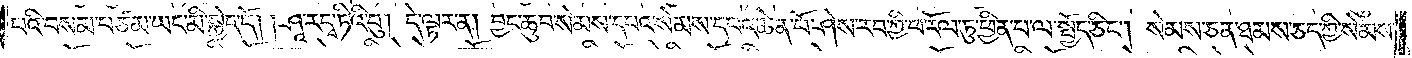པའི་བསམ་པ་ཙམ་ཡང་མི་སྐྱེད་དོ། །ཤཱ་ར་དྭ་ཏིའི་བུ། དེ་ལྟར་ན། བྱང་ཆུབ་སེམས་དཔའ་སེམས་དཔའ་ཆེན་པོ་ཤེས་རབ་ཀྱི་ཕ་རོལ་ཏུ་ཕྱིན་པ་ལ་སྤྱོད་ཅིང༌། སེམས་ཅན་ཐམས་ཅད་ཀྱི་སེམས་
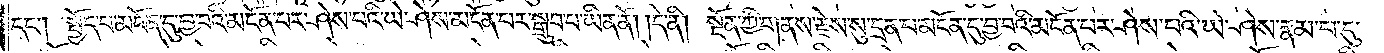དང༌། སྤྱོད་པ་མངོན་དུ་བྱ་བའི་མངོན་པར་ཤེས་པའི་ཡེ་ཤེས་མངོན་པར་སྒྲུབ་པ་ཡིན་ནོ། །དེ་ནི། སྔོན་ཀྱི་གནས་རྗེས་སུ་དྲན་པ་མངོན་དུ་བྱ་བའི་མངོན་པར་ཤེས་པའི་ཡེ་ཤེས་རྣམ་པ་དུ་
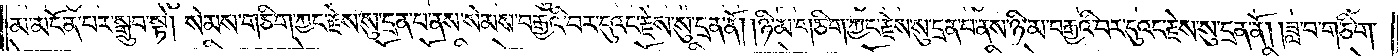མ་མངོན་པར་སྒྲུབ་སྟེ། སེམས་གཅིག་ཀྱང་རྗེས་སུ་དྲན་པ་ནས་སེམས་བརྒྱའི་པར་དུའང་རྗེས་སུ་དྲན་ནོ། །ཉི་མ་གཅིག་ཀྱང་རྗེས་སུ་དྲན་པ་ནས་ཉི་མ་བརྒྱའི་བར་དུའང་རྗེས་སུ་དྲན་ནོ། །ཟླ་བ་གཅིག་
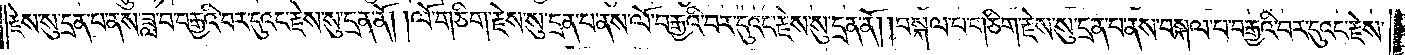རྗེས་སུ་དྲན་པ་ནས་ཟླ་བ་བརྒྱའི་བར་དུའང་རྗེས་སུ་དྲན་ནོ། །ལོ་གཅིག་རྗེས་སུ་དྲན་པ་ནས་ལོ་བརྒྱའི་པར་དུའང་རྗེས་སུ་དྲན་ནོ། །བསྐལ་པ་གཅིག་རྗེས་སུ་དྲན་པ་ནས་བསྐལ་པ་བརྒྱའི་བར་དུའང་རྗེས་
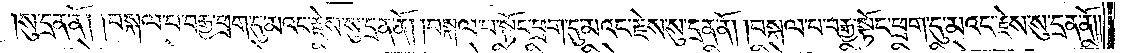སུ་དྲན་ནོ། །བསྐལ་པ་བརྒྱ་ཕྲག་དུ་མའང་རྗེས་སུ་དྲན་ནོ། །བསྐལ་པ་སྟོང་ཕྲག་དུ་མའང་རྗེས་སུ་དྲན་ནོ། །བསྐལ་པ་བརྒྱ་སྟོང་ཕྲག་དུ་མའང་རྗེས་སུ་དྲན་ནོ༎
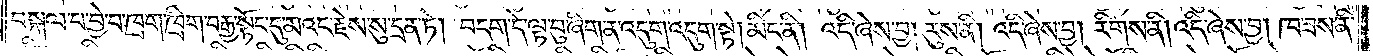བསྐལ་པ་བྱེ་བ་ཁྲག་ཁྲིག་བརྒྱ་སྟོང་དུ་མའང་རྗེས་སུ་དྲན་ཏེ། བདག་དེ་ལྟ་བུ་ཞིག་ན་འདུག་འདུག་སྟེ། མིང་ནི། འདི་ཞེས་བྱ། རུས་ནི། འདི་ཞེས་བྱ། རིགས་ནི། འདི་ཞེས་བྱ། ཁ་ཟས་ནི་
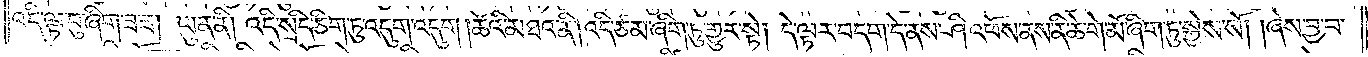འདི་ལྟ་བུ་ཞིག་ཟ་ཟ། ཡུན་ནི། འདི་སྲིད་ཅིག་ཏུ་འདུག་འདུག །ཚེའི་མཐའ་ནི། འདི་ཙམ་ཞིག་ཏུ་གྱུར་སྟེ༑ དེ་ལྟར་བདག་དེ་ནས་ཤི་འཕོས་ནས་ནི་ཆེ་གེ་མོ་ཞིག་ཏུ་སྐྱེས་སོ། །ཞེས་བྱ་བ་
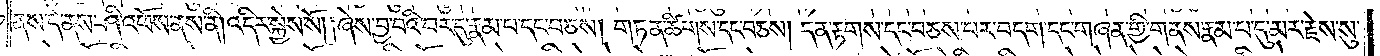ནས་དེ་ནས་ཤི་འཕོས་ནས་ནི། འདིར་སྐྱེས་སོ། །ཞེས་བྱ་བའི་བར་དུ་རྣམ་པ་དང་བཅས། གཏན་ཚིགས་དང་བཅས། དན་རྟགས་དང་བཅས་པར་བདག་དང་གཞན་གྱི་གནས་རྣམ་པ་དུ་མར་རྗེས་སུ་
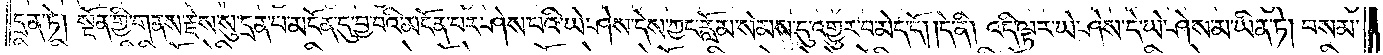དྲན་ཏེ། སྔོན་གྱི་གནས་རྗེས་སུ་དྲན་པ་མངོན་དུ་བྱ་བའི་མངོན་པར་ཤེས་པའི་ཡེ་ཤེས་དེས་ཀྱང་རློམ་སེམས་དུ་འགྱུར་བ་མེད་དོ། །དེ་ནི། འདི་ལྟར་ཡེ་ཤེས་དེ་ཡེ་ཤེས་མ་ཡིན་ཏེ། བསམ་
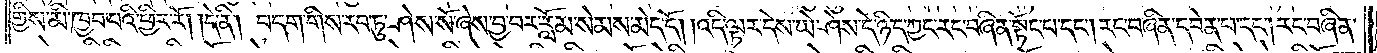གྱིས་མི་ཁྱབ་པའི་ཕྱིར་རོ། །དེ་ནི། བདག་གིས་རབ་ཏུ་ཤེས་སོ་ཞེས་བྱ་བར་རློམ་སེམས་མེད་དོ། །འདི་ལྟར་དེས་ཡེ་ཤེས་དེ་ཉིད་ཀྱང་རང་བཞིན་སྟོང་པ་དང༌། རང་བཞིན་དབེན་པ་དང༌། རང་བཞིན་
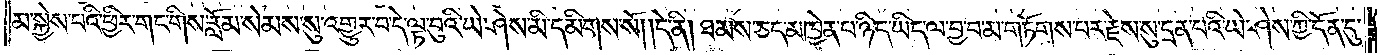མ་སྐྱེས་པའི་ཕྱིར་གང་གིས་རློམ་སེམས་སུ་འགྱུར་བ་དེ་ལྟ་བུའི་ཡེ་ཤེས་མི་དམིགས་སོ། །དེ་ནི། ཐམས་ཅད་མཁྱེན་པ་ཉིད་ཡིད་ལ་བྱ་བ་མ་གཏོགས་པར་རྗེས་སུ་དྲན་པའི་ཡེ་ཤེས་ཀྱི་དོན་དུ་
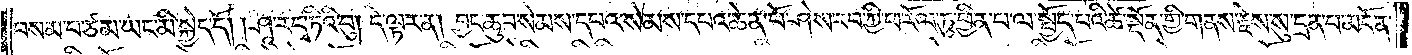བསམ་པ་ཙམ་ཡང་མི་སྐྱེད་དོ། །ཤཱ་ར་དྭ་ཏིའི་བུ། དེ་ལྟར་ན། བྱང་ཆུབ་སེམས་དཔའ་སེམས་དཔའ་ཆེན་པོ་ཤེས་རབ་ཀྱི་ཕ་རོལ་ཏུ་ཕྱིན་པ་ལ་སྤྱོད་པའི་ཚེ་སྔོན་གྱི་གནས་རྗེས་སུ་དྲན་པ་མངོན་
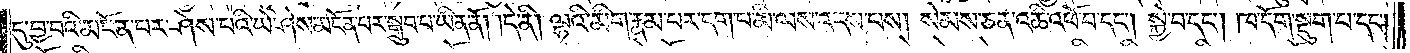དུ་བྱ་བའི་མངོན་པར་ཤེས་པའི་ཡེ་ཤེས་མངོན་པར་སྒྲུབ་པ་ཡིན་ནོ། །དེ་ནི། ལྷའི་མིག་རྣམ་པར་དག་པ་མི་ལས་འདས་པས། སེམས་ཅན་འཆི་འཕོ་བ་དང༌། སྐྱེ་བ་དང༌། ཁ་དོག་སྡུག་པ་དང༌།
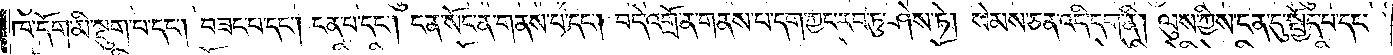ཁ་དོག་མི་སྡུག་པ་དང༌། བཟང་པ་དང༌། ངན་པ་དང༌། ངན་སོང་ན་གནས་པ་དང༌། བདེ་འགྲོ་ན་གནས་པ་དག་ཀྱང་རབ་ཏུ་ཤེས་ཏེ། སེམས་ཅན་འདི་དག་ནི། ལུས་ཀྱིས་ངན་དུ་སྤྱོད་པ་དང་
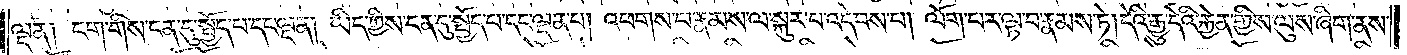ལྡན༑ ངག་གིས་ངན་དུ་སྤྱོད་པ་དང་ལྡན། ཡིད་ཀྱིས་ངན་དུ་སྤྱོད་པ་དང་ལྡན་པ། འཕགས་པ་རྣམས་ལ་སྐུར་པ་འདེབས་པ། ལོག་པར་ལྟ་བ་རྣམས་ཏེ། དེའི་རྒྱུ་དེའི་རྐྱེན་གྱིས་ལུས་ཞིག་ནས་
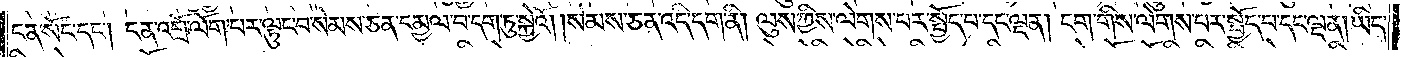ངན་སོང་དང༌། ངན་འགྲོ་ལོག་པར་ལྟུང་བ་སེམས་ཅན་དམྱལ་བ་དག་ཏུ་སྐྱེའོ། །སེམས་ཅན་འདི་དག་ནི། ལུས་ཀྱིས་ལེགས་པར་སྤྱོད་པ་དང་ལྡན། ངག་གིས་ལེགས་པར་སྤྱོད་པ་དང་ལྡན། ཡིད་
